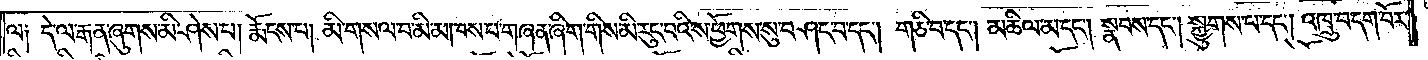ལ༑ དེ་ལ་རྒན་ཞུགས་མི་ཤེས་པ། རྨོངས་པ། མི་གསལ་བ་མི་མཁས་པ་གཞན་ཞིག་གིས་མི་རུང་བའི་ས་ཕྱོགས་སུ་བཤང་བ་དང༌། གཅི་བ་དང༌། མཆིལ་མ་དང༌། སྣབས་དང༌། སྐྱུགས་པ་དང༌། འཁྲུ་བ་དག་བོར་
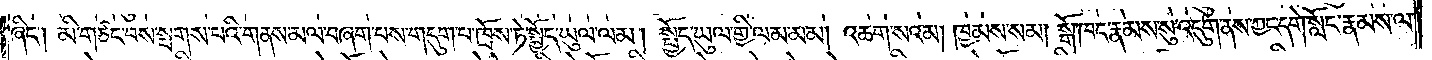ཞིང༌། མི་གཙང་བས་སྦགས་པའི་གནས་མལ་བཞག་པས་གདུག་པ་ཁྲོས་ཏེ་སྤྱོད་ཡུལ་ལམ། སྤྱོད་ཡུལ་གྱི་ལམ་མམ། འཆག་སའམ། ཁྱམས་སམ། སྒོ་ཁང་རྣམས་སུ་འདུག་ནས་ཀྱང་དགེ་སློང་རྣམས་ལ་
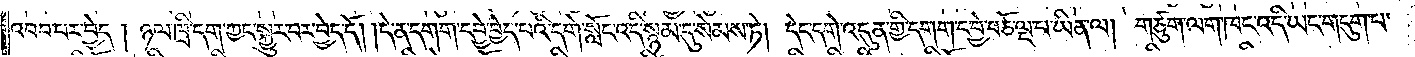འབབ་པར་བྱེད། ཉལ་ཁྲི་དག་ཀྱང་སྐྱུར་བར་བྱེད་དོ། །དེ་ན་དགག་དབྱེ་བྱེད་པའི་དགེ་སློང་འདི་སྙམ་དུ་སེམས་ཏེ། དེང་དགེ་འདུན་གྱི་དགག་དབྱེ་བཅོ་ལྔ་པ་ཡིན་ལ། གཙུག་ལག་ཁང་འདི་ཡང་གདུག་པ་
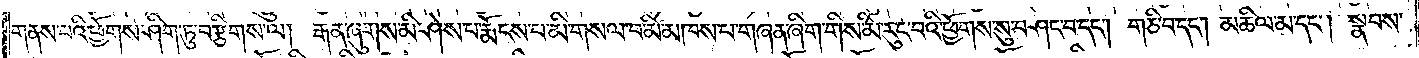གནས་པའི་ཕྱོགས་ཤིག་ཏུ་བརྩིགས་ལ། རྒན་ཞུགས་མི་ཤེས་པ་རྨོངས་པ་མི་གསལ་བ་མི་མཁས་པ་གཞན་ཞིག་གིས་མི་རུང་བའི་ཕྱོགས་སུ་བཤང་བ་དང༌། གཅི་བ་དང༌། མཆིལ་མ་དང༌། སྣབས་
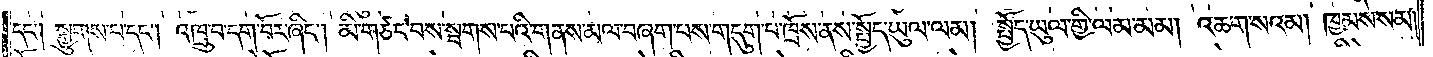དང༌། སྐྱུགས་པ་དང༌། འཁྲུ་བ་དག་བོར་ཞིང༌། མི་གཙང་བས་སྦགས་པའི་གནས་མལ་བཞག་པས་གདུག་པ་ཁྲོས་ནས་སྤྱོད་ཡུལ་ལམ། སྤྱོད་ཡུལ་གྱི་ལམ་མམ། འཆག་སའམ། ཁྱམས་སམ།
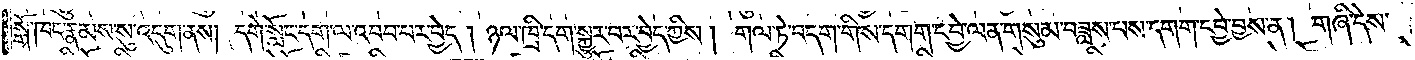སྒོ་ཁང་རྣམས་སུ་འདུག་ནས། དགེ་སློང་དག་ལ་འབབ་པར་བྱེད། ཉལ་ཁྲི་དག་སྐྱུར་བར་བྱེད་ཀྱིས། གལ་ཏེ་བདག་གིས་དགག་དབྱེ་ལན་གསུམ་བཟླས་པས་དགག་དབྱེ་བྱས་ན། གཞི་དེས་
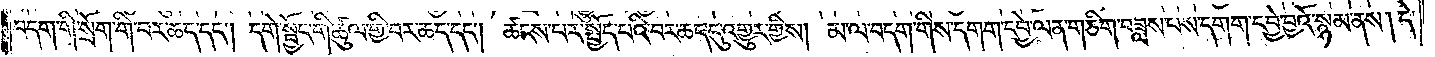བདག་གི་སྲོག་གི་བར་ཆད་དང༌། དགེ་སྦྱོང་གི་ཚུལ་གྱི་བར་ཆད་དང༌། ཚངས་པར་སྤྱོད་པའི་བར་ཆད་དུ་འགྱུར་གྱིས། མ་ལ་བདག་གིས་དགག་དབྱེ་ལན་གཅིག་བཟླས་པས་དགག་དབྱེ་བྱའོ་སྙམ་ནས། དེ་
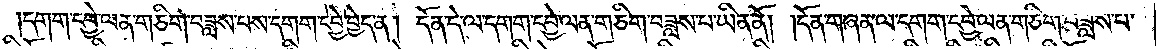དགག་དབྱེ་ལན་གཅིག་བཟླས་པས་དགག་དབྱེ་བྱེད་ན། དོན་དེ་ལ་དགག་དབྱེ་ལན་གཅིག་བཟླས་པ་ཡིན་ནོ། །དོན་གཞན་ལ་དགག་དབྱེ་ལན་གཅིག་བཟླས་པ་
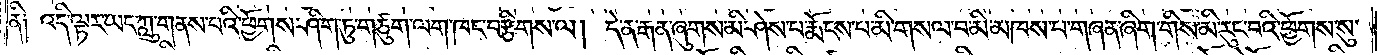ནི༑  འདི་ལྟར་ཡང་ཀླུ་གནས་པའི་ཕྱོགས་ཤིག་ཏུ་གཙུག་ལག་ཁང་བརྩིགས་ལ། དེ་ན་རྒན་ཞུགས་མི་ཤེས་པ་རྨོངས་པ་མི་གསལ་བ་མི་མཁས་པ་གཞན་ཞིག་གིས་མི་རུང་བའི་ཕྱོགས་སུ་
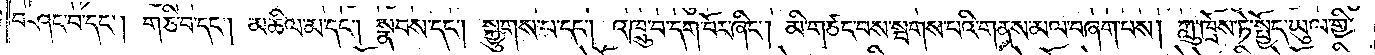བཤང་བ་དང༌། གཅི་བ་དང༌། མཆིལ་མ་དང༌། སྣབས་དང༌། སྐྱུགས་པ་དང༌། འཁྲུ་བ་དག་བོར་ཞིང༌། མི་གཙང་བས་སྦགས་པའི་གནས་མལ་བཞག་པས། ཀླུ་ཁྲོས་ཏེ་སྤྱོད་ཡུལ་གྱི་
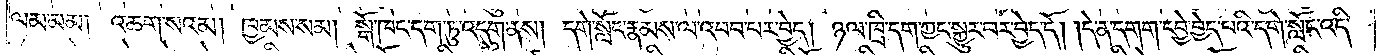ལམ་མམ། འཆག་སའམ། ཁྱམས་སམ། སྒོ་ཁང་དག་ཏུ་འདུག་ནས། དགེ་སློང་རྣམས་ལ་འབབ་པར་བྱེད། ཉལ་ཁྲི་དག་ཀྱང་སྐྱུར་བར་བྱེད་དོ། །དེ་ན་དགག་དབྱེ་བྱེད་པའི་དགེ་སློང་འདི་
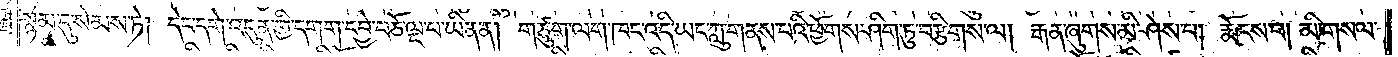སྙམ་དུ་སེམས་ཏེ། དེང་དགེ་འདུན་གྱི་དགག་དབྱེ་བཅོ་ལྔ་པ་ཡིན་ན། གཙུག་ལག་ཁང་འདི་ཡང་ཀླུ་གནས་པའི་ཕྱོགས་ཤིག་ཏུ་བརྩིགས་ལ། རྒན་ཞུགས་མི་ཤེས་པ། རྨོངས་པ། མི་གསལ་
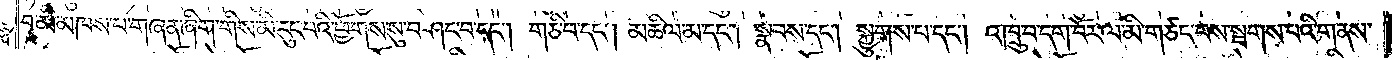བ་མི་མཁས་པ་གཞན་ཞིག་གིས་མི་རུང་བའི་ཕྱོགས་སུ་བཤང་བ་དང༌། གཅི་བ་དང༌། མཆིལ་མ་དང༌། སྣབས་དང༌། སྐྱུགས་པ་དང༌། འཁྲུ་བ་དག་བོར་ལ་མི་གཙང་བས་སྦགས་པའི་གནས་
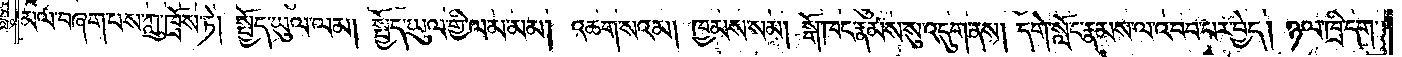མལ་བཞག་པས་ཀླུ་ཁྲོས་ཏེ། སྤྱོད་ཡུལ་ལམ། སྤྱོད་ཡུལ་གྱི་ལམ་མམ། འཆག་སའམ། ཁྱམས་སམ། སྒོ་ཁང་རྣམས་སུ་འདུག་ནས། དགེ་སློང་རྣམས་ལ་འབབ་པར་བྱེད། ཉལ་ཁྲི་དག་
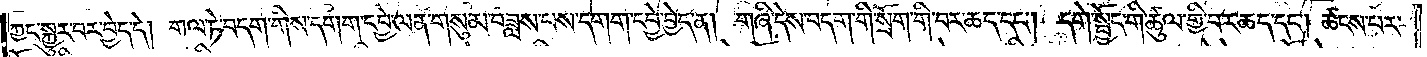ཀྱང་སྐྱུར་བར་བྱེད་དེ། གལ་ཏེ་བདག་གིས་དགག་དབྱེ་ལན་གསུམ་བཟླས་པས་དགག་དབྱེ་བྱེད་ན། གཞི་དེས་བདག་གི་སྲོག་གི་བར་ཆད་དང༌། དགེ་སྦྱོང་གི་ཚུལ་གྱི་བར་ཆད་དང༌། ཚངས་པར་
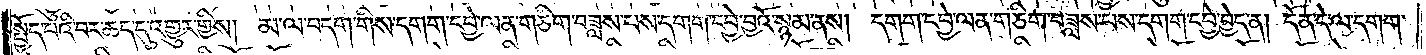སྤྱོད་པའི་བར་ཆད་དུ་འགྱུར་གྱིས། མ་ལ་བདག་གིས་དགག་དབྱེ་ལན་གཅིག་བཟླས་པས་དགག་དབྱེ་བྱའོ་སྙམ་ནས། དགག་དབྱེ་ལན་གཅིག་བཟླས་པས་དགག་དབྱེ་བྱེད་ན། དོན་དེ་ལ་དགག་
